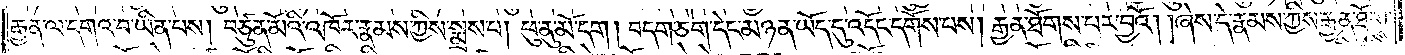རྒྱན་ལ་དགའ་བ་ཡིན་པས། བཙུན་མོའི་འཁོར་རྣམས་ཀྱིས་སྨྲས་པ། ཕུ་ནུ་མོ་དག །བདག་ཅག་དེང་མཉན་ཡོད་དུ་འདོང་དགོས་པས། རྒྱན་ཐོགས་པར་བྱའོ། །ཞེས་དེ་རྣམས་ཀྱིས་རྒྱན་ཐོགས་
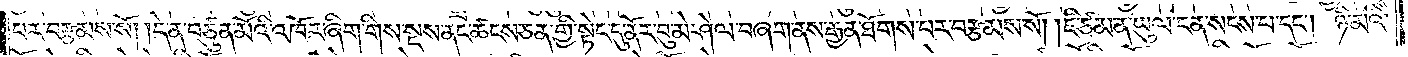པར་བརྩམས་སོ། །དེ་ན་བཙུན་མོའི་འཁོར་ཞིག་གིས་སྔས་ནང་ཚངས་ཅན་གྱི་སྟེང་དུ་ནོར་བུ་མེ་ཤེལ་བཞག་ནས་རྒྱན་ཐོགས་པར་བརྩམས་སོ། །ཇི་ཙམ་ན་ཡུལ་ངན་སངས་པ་དང༌། ཉི་མའི་
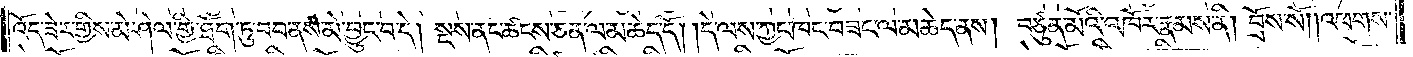འོད་ཟེར་གྱིས་མེ་ཤེལ་གྱི་ཐོག་ཏུ་བབ་ནས་མེ་བྱུང་བ་དེ། སྔས་ནང་ཚངས་ཅན་ལ་མཆེད་དོ། །དེ་ལས་ཀྱང་ཁང་བཟང་ལ་མཆེད་ནས། བཙུན་མོའི་འཁོར་རྣམས་ནི། བྲོས་སོ། །འཕགས་
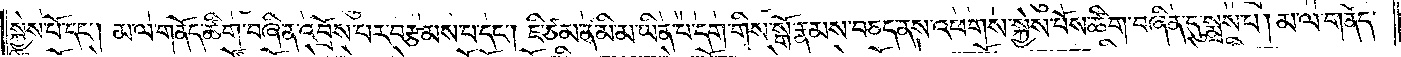སྐྱེས་པོ་དང༌། མ་ལ་གནོད་ཚིག་བཞིན་འབྲོས་པར་བརྩམས་པ་དང༌། ཇི་ཙམ་ན་མི་མ་ཡིན་པ་དག་གིས་སྒོ་རྣམས་བཅད་ནས་འཕགས་སྐྱེས་པོས་ཚིག་བཞིན་དུ་སྨྲས་པ། མ་ལ་གནོད་
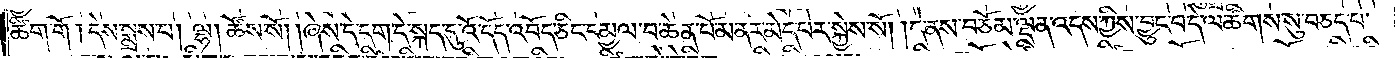ཚིག་གོ །དེས་སྨྲས་པ། ལྷ། ཚོས་སོ། །ཞེས་དེ་དག་དེ་སྐད་དུ་འོ་དོད་འབོད་ཅིང་དམྱལ་བ་ཆེན་པོ་མནར་མེད་པར་སྐྱེས་སོ། །དེ་ནས་བཅོམ་ལྡན་འདས་ཀྱིས་བྱུང་བ་དེ་ལ་ཚིགས་སུ་བཅད་པ་
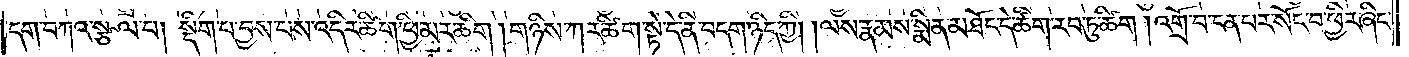དག་བཀའ་སྩལ་པ། སྡིག་པ་བྱས་པས་འདིར་ཚིག་ཕྱི་མར་ཚིག །གཉིས་ཀར་ཚིག་སྟེ་དེ་ནི་བདག་ཉིད་ཀྱི། ལས་རྣམས་སྨིན་མཐོང་དེ་ཚིག་རབ་ཏུ་ཚིག །འགྲོ་བ་ངན་པར་སོང་བ་ཕྱིར་ཞིང་
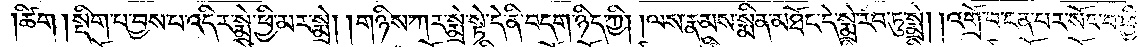ཚིག །སྡིག་པ་བྱས་པ་འདིར་སྨྲེ་ཕྱི་མར་སྨྲེ། །གཉིས་ཀར་སྨྲེ་སྟེ་དེ་ནི་བདག་ཉིད་ཀྱི། །ལས་རྣམས་སྨིན་མཐོང་དེ་སྨྲེ་རབ་ཏུ་སྨྲེ། །འགྲོ་བ་ངན་པར་སོང་བ་ཕྱིར་
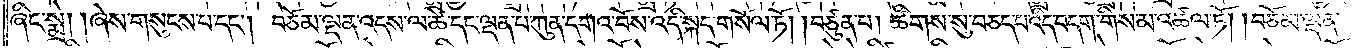ཞིང་སྨྲེ། །ཞེས་གསུངས་པ་དང༌། བཅོམ་ལྡན་འདས་ལ་ཚེ་དང་ལྡན་པ་ཀུན་དགའ་བོས་འདི་སྐད་གསོལ་ཏོ། །བཙུན་པ། ཚིགས་སུ་བཅད་པ་འདི་བདག་གིས་མ་འཚལ་ཏོ། །བཅོམ་ལྡན་
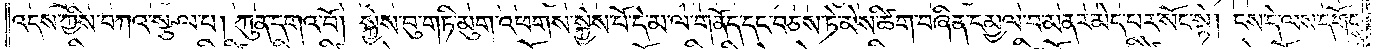འདས་ཀྱིས་བཀའ་སྩལ་པ། ཀུན་དགའ་བོ། སྐྱེས་བུ་གཏི་མུག་འཕགས་སྐྱེས་པོ་དེ་མ་ལ་གནོད་དང་བཅས་ཏེ་མེས་ཚིག་བཞིན་དམྱལ་བ་མནར་མེད་པར་སོང་སྟེ། ངས་དེ་ལས་དགོངས་
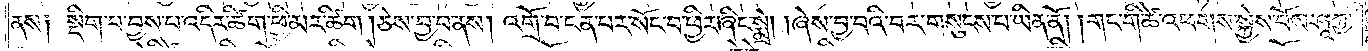ནས༑ སྡིག་པ་བྱས་པ་འདིར་ཚིག་ཕྱི་མར་ཚིག །ཅེས་བྱ་བ་ནས། འགྲོ་བ་ངན་པར་སོང་བ་ཕྱིར་ཞིང་སྨྲེ། །ཞེས་བྱ་བའི་བར་གསུངས་པ་ཡིན་ནོ། །གང་གི་ཚེ་འཕགས་སྐྱེས་པོས་ཤཱཀྱ་
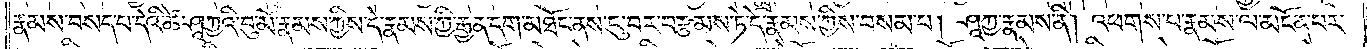རྣམས་བསད་པ་དེའི་ཚེ་ཤཱཀྱའི་བུ་མོ་རྣམས་ཀྱིས་དེ་རྣམས་ཀྱི་རྒྱན་དག་མཐོང་ནས་ངུ་བར་བརྩམས་ཏེ་དེ་རྣམས་ཀྱིས་བསམ་པ། ཤཱཀྱ་རྣམས་ནི། འཕགས་པ་རྣམས་ལ་མངོན་པར་
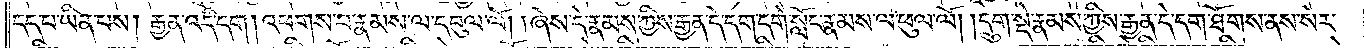དད་པ་ཡིན་པས། རྒྱན་འདི་དག། འཕགས་པ་རྣམས་ལ་དབུལ་ལོ། །ཞེས་དེ་རྣམས་ཀྱིས་རྒྱན་དེ་དག་དགེ་སློང་རྣམས་ལ་ཕུལ་ལོ། །དྲུག་སྡེ་རྣམས་ཀྱིས་རྒྱན་དེ་དག་ཐོགས་ནས་སེར་
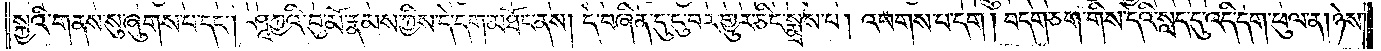སྐྱའི་གནས་སུ་ཞུགས་པ་དང༌། ཤཱཀྱའི་བུ་མོ་རྣམས་ཀྱིས་དེ་དག་མཐོང་ནས། དེ་བཞིན་དུ་ངུ་བར་གྱུར་ཅིང་སྨྲས་པ། འཕགས་པ་དག །བདག་ཅག་གིས་དེའི་སླད་དུ་འདི་དག་ཕུལ་ན། ཉེས་
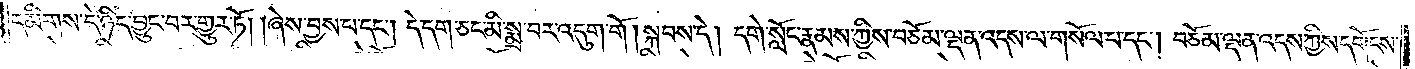དམིགས་དེ་ཉིད་བྱུང་བར་གྱུར་ཏོ། །ཞེས་བྱས་པ་དང༌། དེ་དག་ཅང་མི་སྨྲ་བར་འདུག་གོ །སྐབས་དེ། དགེ་སློང་རྣམས་ཀྱིས་བཅོམ་ལྡན་འདས་ལ་གསོལ་པ་དང༌། བཅོམ་ལྡན་འདས་ཀྱིས་དགོངས་
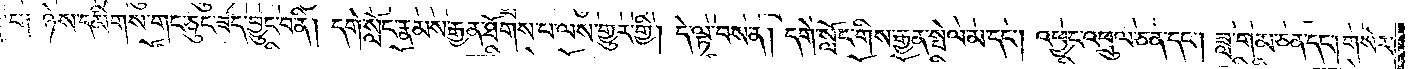པ༑ ཉེས་དམིགས་གང་ཅུང་ཟད་བྱུང་བ་ནི། དགེ་སློང་རྣམས་རྒྱན་ཐོགས་པ་ལས་གྱུར་གྱི། དེ་ལྟ་བས་ན། དགེ་སློང་གིས་རྒྱན་སྤེལ་མ་དང༌། འཕྱང་འཕྲུལ་ཅན་དང༌། ཟླ་གམ་ཅན་དང༌། གསེར་
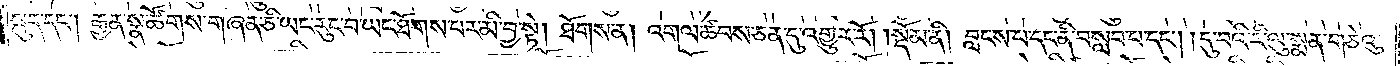སྐུད་དང༌། རྒྱན་སྣ་ཚོགས་གཞན་ཅི་ཡང་རུང་བ་ཡང་ཐོགས་པར་མི་བྱ་སྟེ། ཐོགས་ན། འགལ་ཚབས་ཅན་དུ་འགྱུར་རོ།    །སྡོམ་ནི། བླངས་པ་དང་ནི་བསླབ་པ་དང༌། །དུ་བའི་རི་ལུ་སྨན་གཅེའུ་
